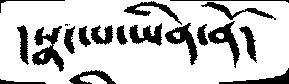།སྣང་པ་ཡིན་ནོ།
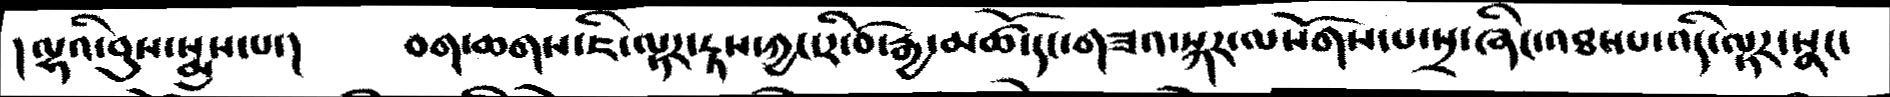།ལྷའི་བུས་སྨྲས་པ་།   བག་ཆགས་ཇི་ལྟར་རྟས་ཀྱང་རི་བོ་རྒྱ་མཚོ་དང་གཟའ་སྐར་ལསོགས་པ་སྲ་ཞིང་འཐས་པ་འདི་ལྟར་སྣང་
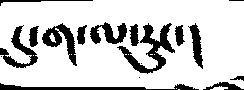དུ་ག་ལ་རུང་།
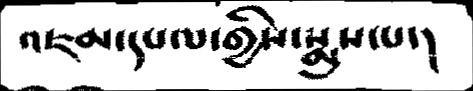འཇམ་དཔལ་གྱིས་སྨྲས་པ་།
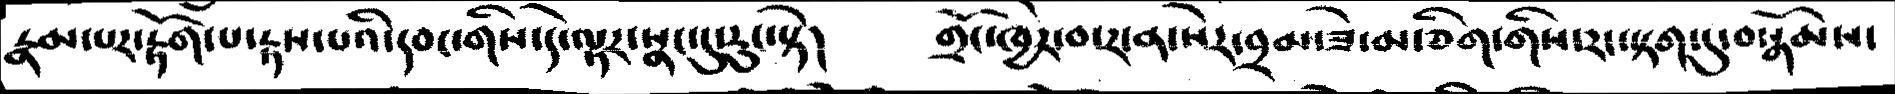རྣམ་པར་རྟོག་པ་རྟས་པའི་དབང་གིས་དེ་ལྟར་སྣང་དུ་རུང་སྟེ།    གྲོང་ཁྱེར་བ་ར་ན་སེར་བྲམ་ཟེ་མ་ཅིག་གིས་རང་སྟག་དུ་བསྒོམས་
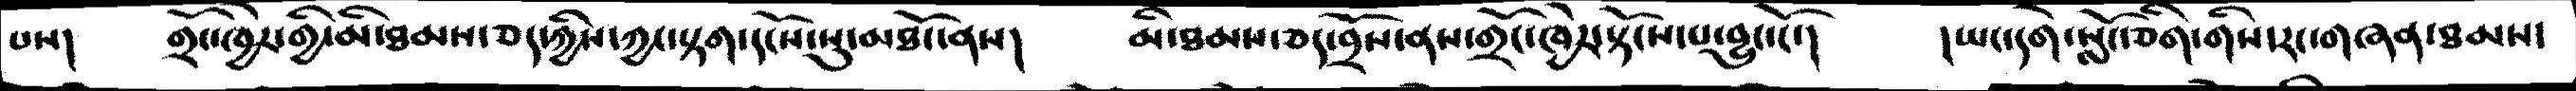པས།   གྲོང་ཁྱེར་གྱི་མི་ཐམས་ཅད་ཀྱིས་ཀྱང་སྟག་དངོས་སུ་མཐོང་ནས།  མི་ཐམས་ཅད་བྲོས་ནས་གྲོང་ཁྱེར་སྟོངས་པ་བྱུང་ངོ་།  །ཡང་དགེ་སློང་ཅིག་གིས་རང་གཞན་ཐམས་
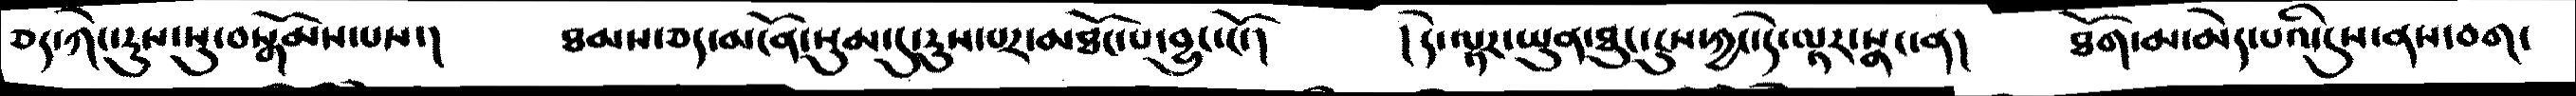ཅད་ཀེང་རུས་སུ་བསྒོམས་པས་།   ཐམས་ཅད་མངོན་སུམ་དུ་རུས་པར་མཐོང་པ་བྱུང་ངོ་།  །དེ་ལྟར་ཡུན་ཐུང་ངུས་ཀྱང་དེ་ལྟར་སྣང་ན།   ཐོག་མ་མེད་པའི་དུས་ནས་བག་
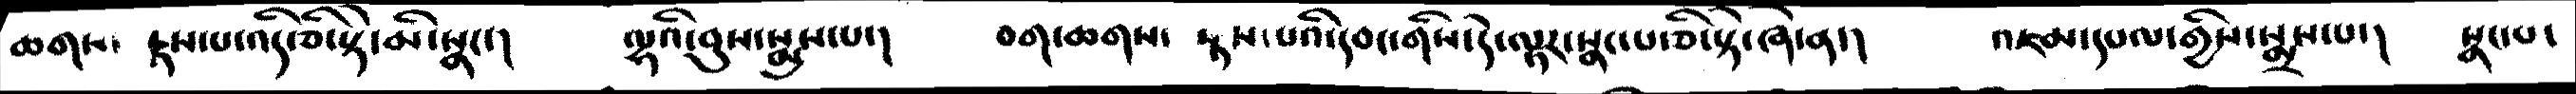ཆགས་  རྟས་པ་འདི་ཅི་སྟེ་མི་སྣང་།  ལྷའི་བུས་སྨྲས་པ་།   བག་ཆགས་  རྟས་པའི་དབང་གིས་དེ་ལྟར་སྣང་པ་ཅི་སྟེ་ཞེ་ན་།   འཇམ་དཔལ་གྱིས་སྨྲས་པ་།   སྣང་པ་
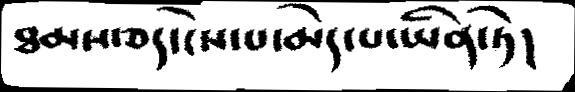ཐམས་ཅད་ངེས་པ་མེད་པ་ཡིན་ཏེ།
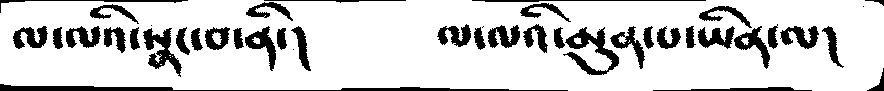ལ་ལའི་སྣང་བ་ནི་།    ལ་ལའི་མུན་པ་ཡིན་ལ།
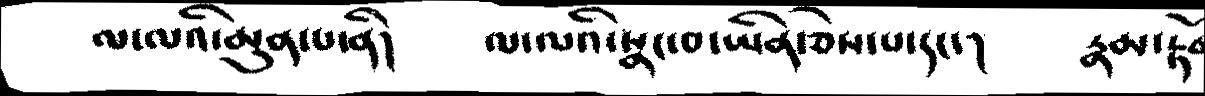ལ་ལའི་མུན་པ་ནི།   ལ་ལའི་སྣང་བ་ཡིན་ཅེས་པ་དང་།   རྣམ་རྟོག
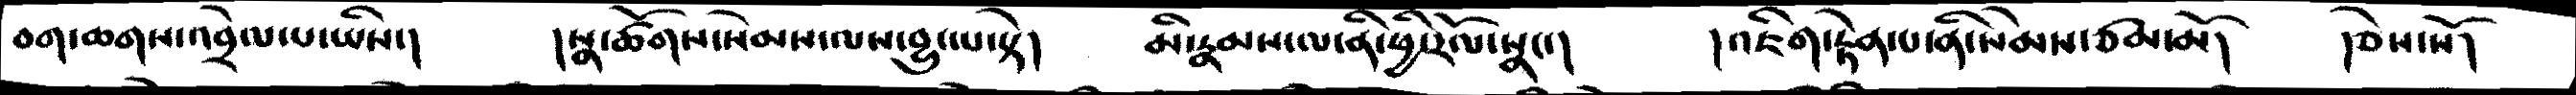བག་ཆགས་འབྲེལ་པ་ཡིས་།   །སྣ་ཚོགས་སེམས་ལས་བྱུང་པ་སྟེ།   མི་རྣམས་ལ་ནི་ཕྱི་རོལ་སྣང་།   །འཇིག་རྟེན་པ་ནི་སེམས་ཙམ་མོ།   །ཅེས་སོ།
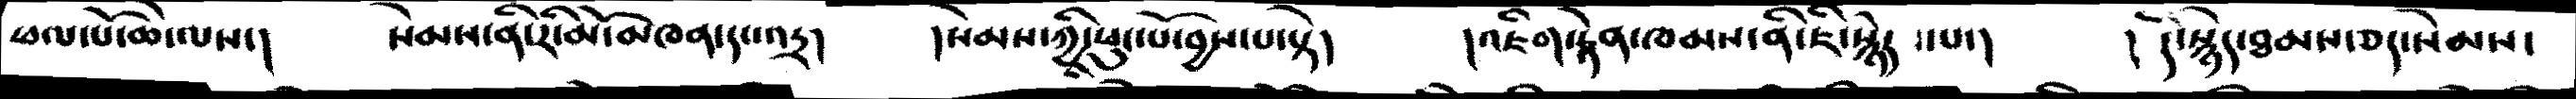ཕལ་པོ་ཆེ་ལས་།    སེམས་ནི་རི་མོ་མཁན་དང་འདྲ།    །སེམས་ཀྱི་ཕུང་པོ་བྱས་པ་སྟེ།  །འཇིག་རྟེན་ཁམས་ནི་ཇི་སྙེད ་པ་།  ། དེ་སྙེད་ཐམས་ཅད་སེམས་
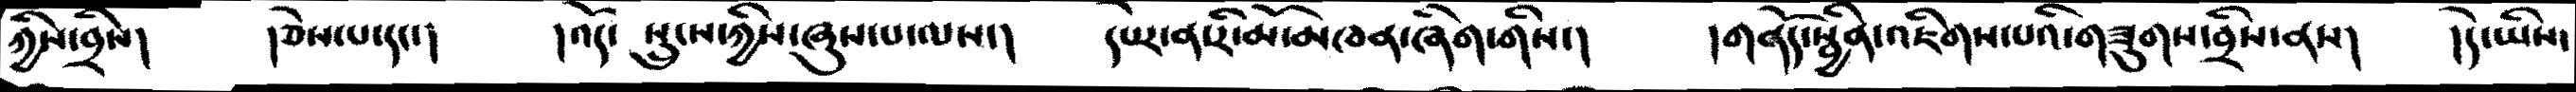ཀྱིས་བྲིས།   །ཅེས་པ་དང་།    །འོད་  སྲུངས་ཀྱིས་ཞུས་པ་ལས་།   དཔེར་ན་རི་མོ་མཁན་ཞིག་གིས་།   །གནོད་སྦྱིན་འཇིགས་པའི་གཟུགས་བྲིས་ནས།   །དེ་ཡིས་
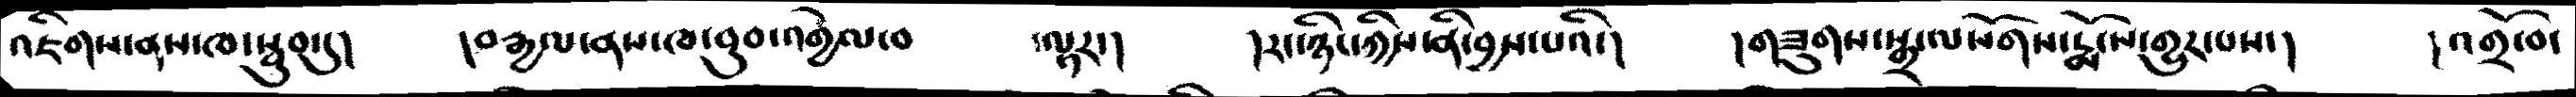འཇིགས་ནས་ཁ་སྦུབ་དུ།   །བརྒྱལ་ནས་ཁ་བུབ་འགྱེལ་བ    ་ལྟར་།  །རང་ཉིད་ཀྱིས་ནི་བྱས་པའི་།  །གཟུགས་སྒྲ་ལསོགས་རྨོངས་གྱུར་པས་།    །འགྲོ་བ་
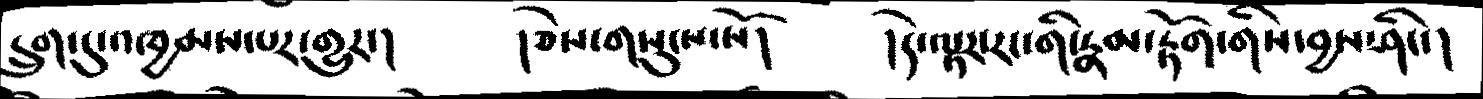དྲུག་དུ་འཁྱམས་པར་གྱུར་།  །ཅེས་གསུངས་སོ།   །དེ་ལྟར་རང་གི་རྣམ་རྟོག་གིས་བྱས་ཤིང་།
